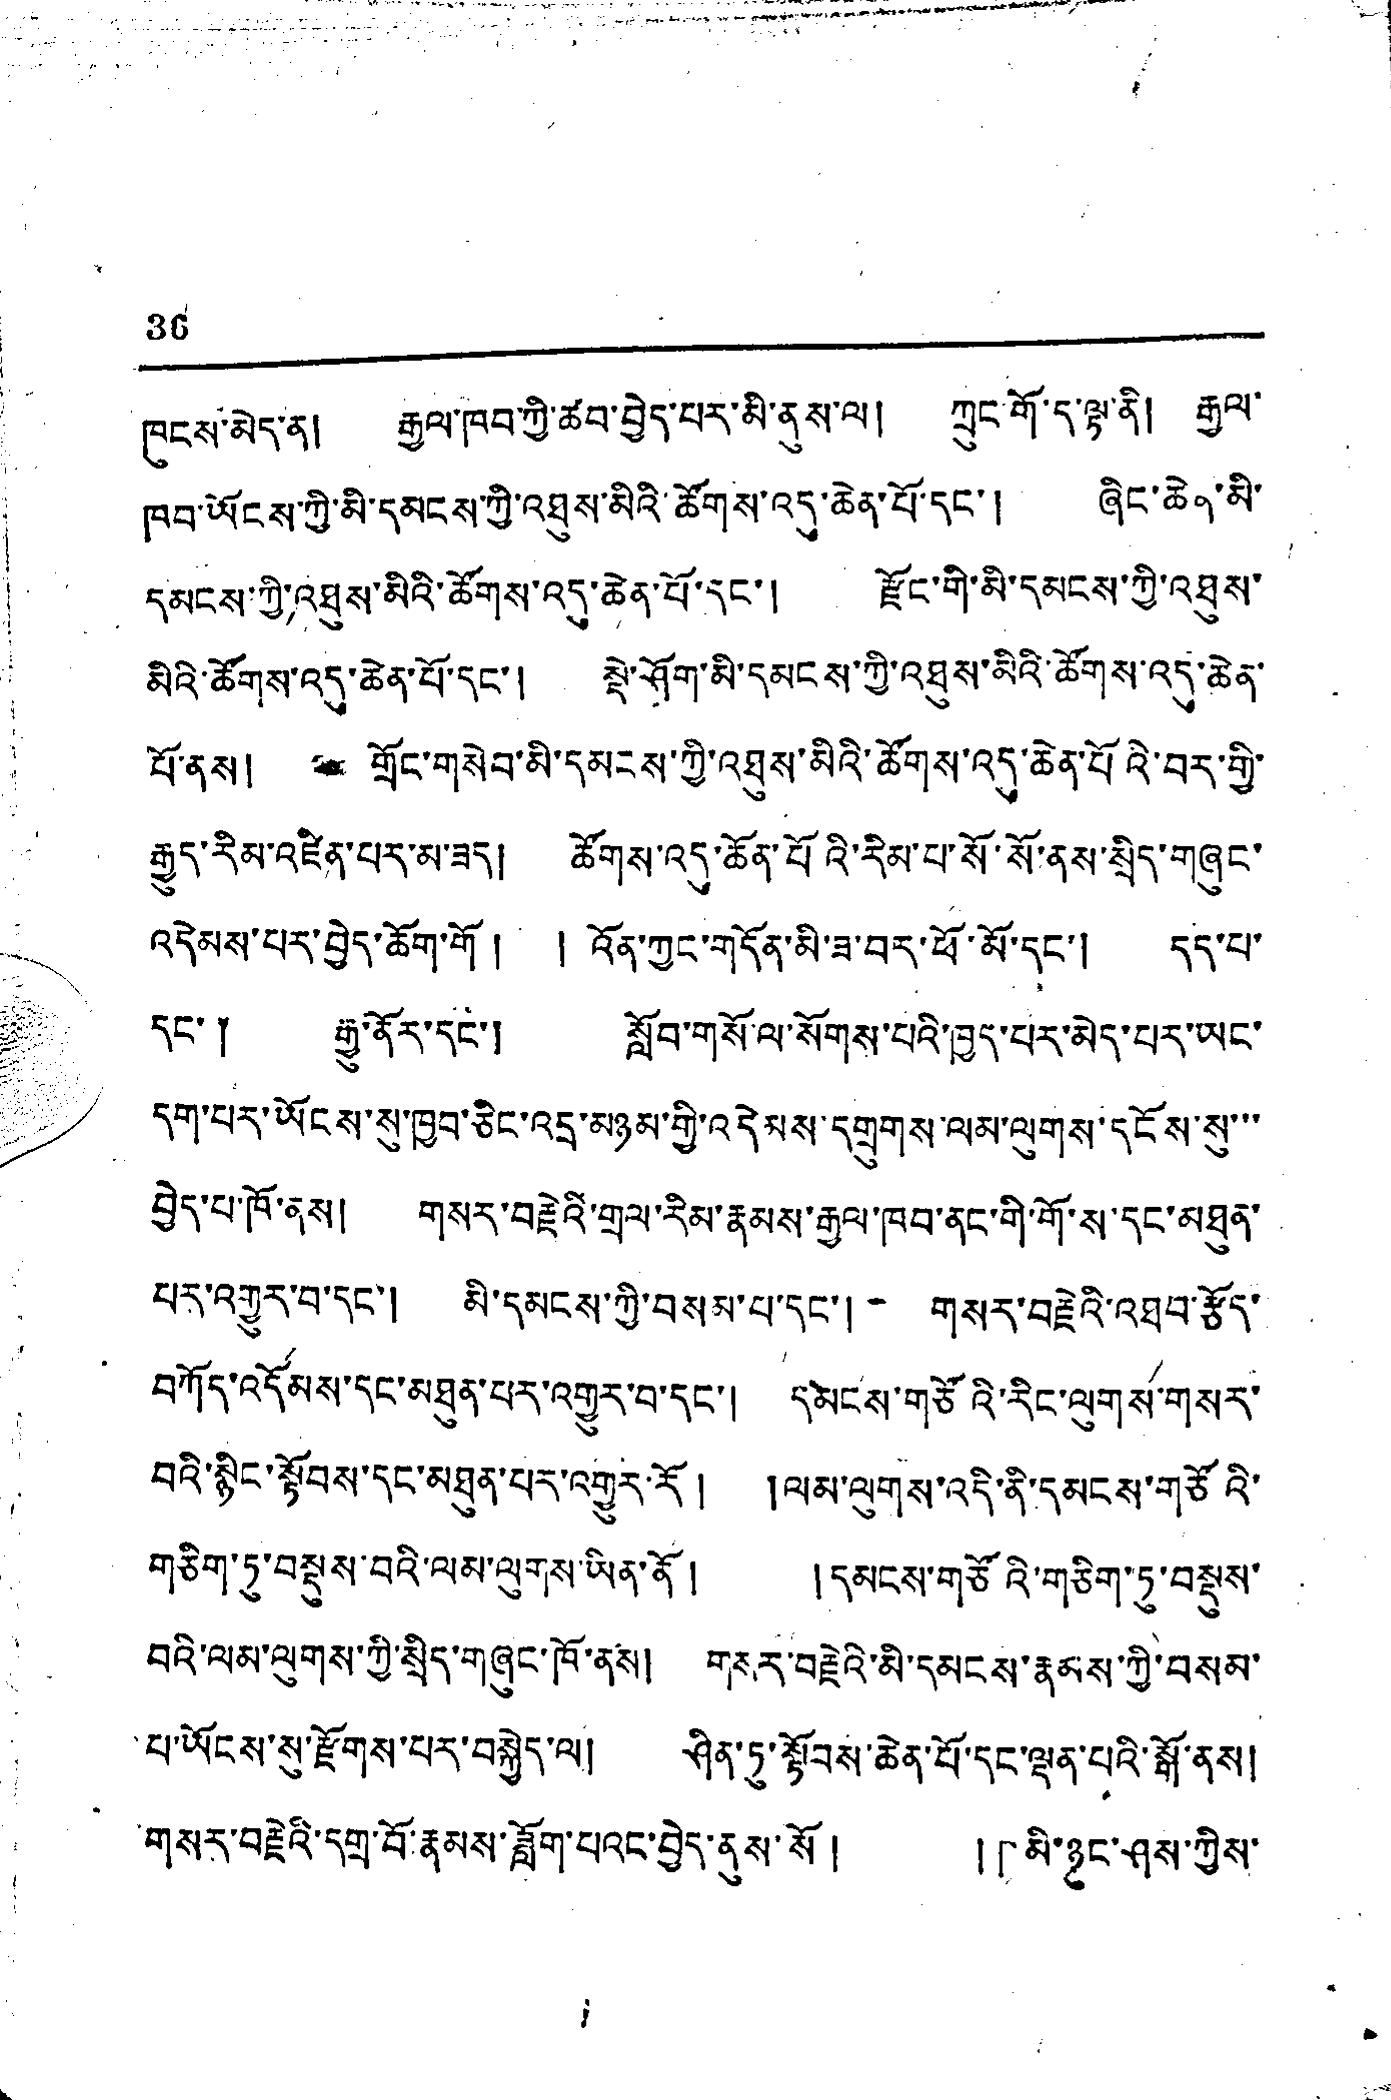36
ཁུངས་མེད་ན། རྒྱལ་ཁབ་ཀྱི་ཚབ་བྱེད་པར་མི་ནུས་ལ། ཀྲུང་གོ་ད་ལྟ་ནི། རྒྱལ་
ཁབ་ཡོངས་ཀྱི་མི་དམངས་ཀྱི་འཐུས་མིའི་ཚོགས་འདུ་ཆེན་པོ་དང་། ཞིང་ཆེན་མི་
དམངས་ཀྱི་འཐུས་མིའི་ཚོགས་འདུ་ཆེན་པོ་དང་། རྫོང་གི་མི་དམངས་ཀྱི་འཐུས་
མིའི་ཚོགས་འདུ་ཆེན་པོ་དང་། སྡེ་ཤོག་མི་དམངས་ཀྱི་འཐུས་མིའི་ཚོགས་འདུ་ཆེན་
པོ་ནས། གྲོང་གསེབ་མི་དམངས་ཀྱི་འཐུས་མིའི་ཚོགས་འདུ་ཆེན་པོའི་བར་གྱི་
རྒྱུད་རིམ་འཛིན་པར་མ་ཟད། ཚོགས་འདུ་ཆོན་པོའི་རིམ་པ་སོ་སོ་ནས་སྲིད་གཞུང་
འདེམས་པར་བྱེད་ཆོག་གོ ། ། འོན་ཀྱང་གདོན་མི་ཟ་བར་ཕོ་མོ་དང་། དད་པ་
དང་༐ རྒྱ་ནོར་དང་། སློབ་གསོ་ལ་སོགས་པའི་ཁྱད་པར་མེད་པར་ཡང་
དག་པར་ཡོངས་སུ་ཁྱབ་ཅིང་འདྲ་མཉམ་གྱི་འདེམས་དགྲུགས་ལམ་ལུགས་དངོས་སུ་་་
བྱེད་པ་ཁོ་ནས། གསར་བརྗེའི་གྲལ་རིམ་རྣམས་རྒྱལ་ཁབ་ནང་གི་གོ་ས་དང་མཐུན་
པར་འགྱུར་བ་དང་། མི་དམངས་ཀྱི་བསམ་པ་དང་། གསར་བརྗེའི་འཐབ་རྩོད་
བཀོད་འདོམས་དང་མཐུན་པར་འགྱུར་བ་དང་། དམངས་གཙོའི་རིང་ལུགས་གསར་
བའི་སྙིང་སྟོབས་དང་མཐུན་པར་འགྱུར་རོ། །ལམ་ལུགས་འདི་ནི་དམངས་གཙོའི་
གཅིག་ཏུ་བསྡུས་བའི་ལམ་ལུགས་ཡིན་ནོ། །དམངས་གཙོའི་གཅིག་ཏུ་བསྡུས་
བའི་ལམ་ལུགས་ཀྱི་སྲིད་གཞུང་ཁོ་ནས། གསར་བརྗེའི་མི་དམངས་རྣམས་ཀྱི་བསམ་
པ་ཡོངས་སུ་རྫོགས་པར་བསྐྱེད་ལ། ཤིན་ཏུ་སྟོབས་ཆེན་པོ་དང་ལྡན་པའི་སྒོ་ནས།
གསར་བརྗེའི་དགྲ་བོ་རྣམས་ཟློག་པའང་བྱེད་ནུས་སོ ། །「མི་ཉུང་ཤས་ཀྱིས་
